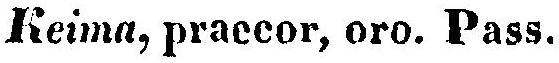Keima, praecor, oro. Pass.
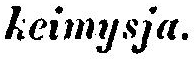keimysja.
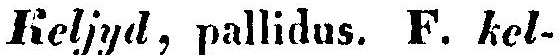Keljyd, pallidus. F. kel-
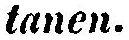tanen.
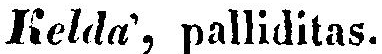Kelda', palliditas.
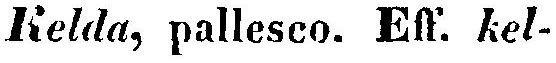Kelda, pallesco. Eff. kel-
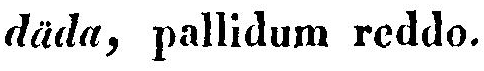däda, pallidum reddo.
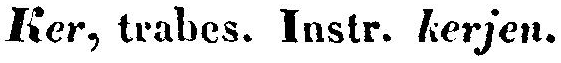Ker, trabes. Instr. kerjen.
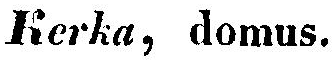Kerka, domus.
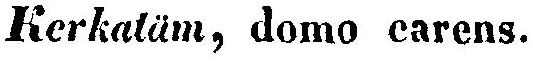Kerkatäm, domo carens.
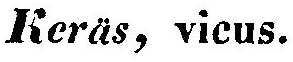Keräs, vicus.
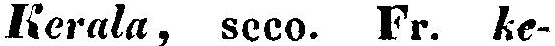Kerala, seco. Fr. ke-
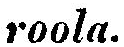roola.
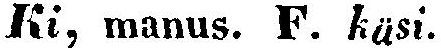Ki, manus. F. käsi.
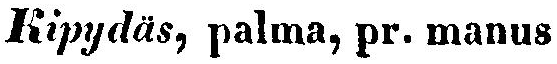Kipydäs, palma, pr. manus
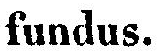fundus.
